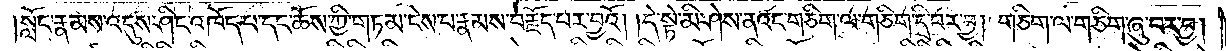སློང་རྣམས་འདུས་ཤིང་འཁོད་པ་དང་ཆོས་ཀྱི་གཏམ་ངེས་པ་རྣམས་བརྗོད་པར་བྱའོ། །དེ་སྟེ་མི་ཤེས་ནའང་གཅིག་ལ་གཅིག་དྲི་བར་བྱ། གཅིག་པ་ལ་གཅིག་ཞུ་བར་བྱ།
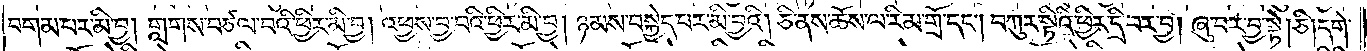བགམ་པར་མི་བྱ། གླགས་བཙལ་བའི་ཕྱིར་མི་བྱ། འཕྱས་བྱ་བའི་ཕྱིར་མི་བྱ། ཉམས་བསྐྱེད་པར་མི་བྱའི། ཅི་ནས་ཆོས་ལ་རིམ་གྲོ་དང༌། བཀུར་སྟིའི་ཕྱིར་དྲི་བར་བྱ། ཞུ་བར་བྱ་སྟེ། ཅི། དགེ་
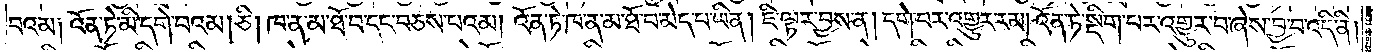བའམ༑ འོན་ཏེ་མི་དགེ་བའམ། ཅི། ཁ་ན་མ་ཐོ་བ་དང་བཅས་པའམ། འོན་ཏེ་ཁ་ན་མ་ཐོ་བ་མེད་པ་ཡིན། ཇི་ལྟར་བྱས་ན། དགེ་བར་འགྱུར་རམ། འོན་ཏེ་སྡིག་པར་འགྱུར་བ་ཞེས་བྱ་བ་འདི་ནི།
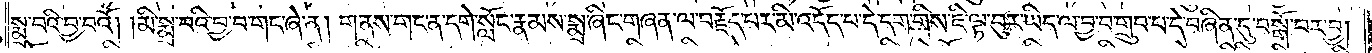སྨྲ་བའི་བྱ་བའོ། །མི་སྨྲ་བའི་བྱ་བ་གང་ཞེ་ན། གནས་གང་ན་དགེ་སློང་རྣམས་སྨྲ་ཞིང་གཞན་ལ་བརྗོད་པར་མི་འདོད་པ་དེ་དག་གིས་ཇི་ལྟ་བུར་ཡིད་ལ་བྱ་བ་གྲུབ་པ་དེ་བཞིན་དུ་བསྒོ་བར་བྱ།
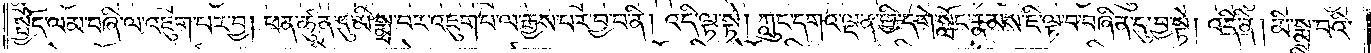སྤྱོད་ལམ་བཞི་ལ་འཇུག་པར་བྱ། ཕན་ཚུན་དུ་མི་སྨྲ་བར་འཇུག་པ་ལ་རྒྱས་པར་བྱ་བ་ནི། འདི་ལྟ་སྟེ། ཀླུང་དགའ་ལྡན་གྱི་དགེ་སློང་རྣམས་ཇི་ལྟ་བ་བཞིན་དུ་བྱ་སྟེ། འདི་ནི། མི་སྨྲ་བའི་
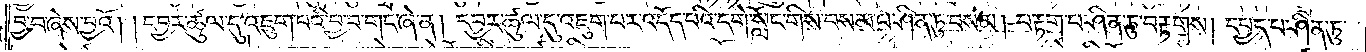བྱ་བ་ཞེས་བྱའོ། །དབྱར་ཚུལ་དུ་འཇུག་པའི་བྱ་བ་གང་ཞེ་ན། དབྱར་ཚུལ་དུ་འཇུག་པར་འདོད་པའི་དགེ་སློང་གིས་བསམ་པ་ཤིན་ཏུ་བསམ། བརྟག་པ་ཤིན་ཏུ་བརྟགས། དཔྱད་པ་ཤིན་ཏུ་
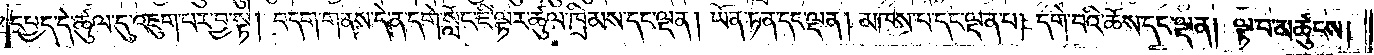དཔྱད་དེ་ཚུལ་དུ་འཇུག་པར་བྱ་སྟེ། བདག་གནས་དེ་ན་དགེ་སློང་ཇི་ལྟར་ཚུལ་ཁྲིམས་དང་ལྡན། ཡོན་ཏན་དང་ལྡན། མཁས་པ་དང་ལྡན་པ། དགེ་བའི་ཆོས་དང་ལྡན། ལྟ་བ་མཚུངས།
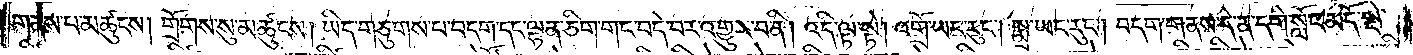གནས་པ་མཚུངས། གྲོགས་སུ་མཚུངས། ཡིད་གཅུགས་པ་བདག་དང་ལྷན་ཅིག་གང་བདེ་བར་འགྱུར་བ་ནི། འདི་ལྟ་སྟེ། འགྲོ་ཡང་རུང༌། སྨྲ་ཡང་རུང༌། བདག་གནས་དེ་ན་དགེ་སློང་མདོ་སྡེ་
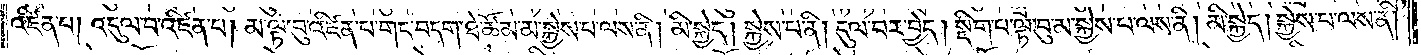འཛིན་པ། འདུལ་བ་འཛིན་པ། མ་ལྟ་བུ་འཛིན་པ་གང་བདག་ཐེ་ཚོམ་མ་སྐྱེས་པ་ལས་ནི། མི་སྐྱེད། སྐྱེས་པ་ནི། དུལ་བར་བྱེད། སྡིག་པ་ལྟ་བུ་མ་སྐྱེས་པ་ལས་ནི། མི་སྐྱེད། སྐྱེས་པ་ལས་ནི།
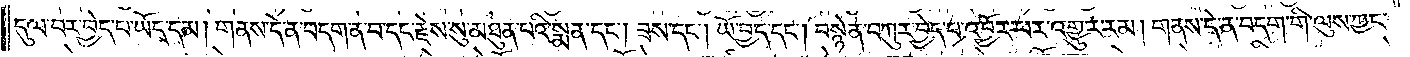དུལ་བར་བྱེད་པ་ཡོད་དམ། གནས་དེ་ན་བདག་ན་བ་དང་རྗེས་སུ་མཐུན་པའི་སྨན་དང༌། ཟས་དང༌། ཡོ་བྱད་དང༌། བསྙེན་བཀུར་བྱེད་པ་འབྱོར་པར་འགྱུར་རམ། གནས་དེ་ན་བདག་གི་ལུས་ཀྱང་
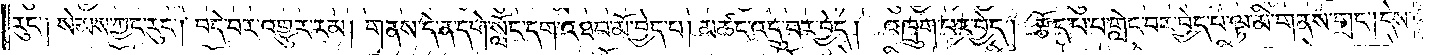རུང་༑ སེམས་ཀྱང་རུང༌། བདེ་བར་འགྱུར་རམ། གནས་དེ་ན་དགེ་སློང་དག་འཐབ་མོ་བྱེད་པ། མཚང་འདྲུ་བར་བྱེད། འཁྲུག་པར་བྱེད། རྩོད་པ་པ་གླེང་བར་བྱེད་པ་ལྟ་མི་གནས་གྲང༌། དེས་
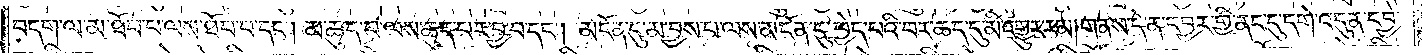བདག་ལ་མ་ཐོབ་པ་ལས་ཐོབ་པ་དང༌། མ་ཆུད་པ་ལས་ཆུད་པར་བྱ་བ་དང༌། མངོན་དུ་མ་བྱས་པ་ལ་མངོན་དུ་ཕྱེད་པའི་བར་ཆད་དུ་མི་འགྱུར་རམ། གནས་དེ་ན་དབྱར་གྱི་ནང་དུ་དགེ་འདུན་དབྱེ་
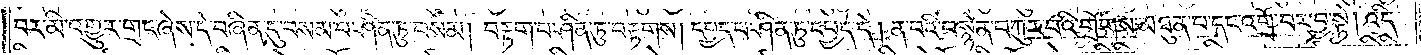བར་མི་འགྱུར་གྲང་ཞེས་དེ་བཞིན་དུ་བསམ་པ་ཤིན་ཏུ་བསམ། བརྟག་པ་ཤིན་ཏུ་བརྟགས། དཔྱད་པ་ཤིན་ཏུ་དཔྱད་དེ། ན་བའི་བསྙེན་བཀུར་བའི་གྲོགས་མཐུན་པ་དང་འགྲོ་བར་བྱ་སྟེ། འདི་
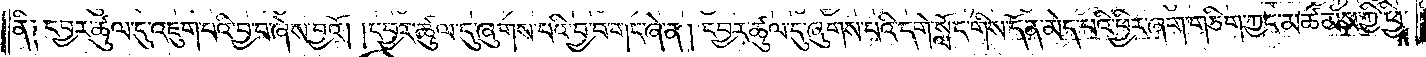ནི༑ དབྱར་ཚུལ་དུ་འཇུག་པའི་བྱ་བ་ཞེས་བྱའོ། །དབྱར་ཚུལ་དུ་ཞུགས་པའི་བྱ་བ་གང་ཞེ་ན། དབྱར་ཚུལ་དུ་ཞུགས་པའི་དགེ་སློང་གིས་དོན་མེད་པའི་ཕྱིར་ཞག་གཅིག་ཀྱང་མཚམས་ཀྱི་ཕྱི་
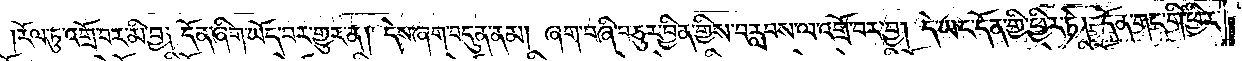རོལ་ཏུ་འགྲོ་བར་མི་བྱ༑ དོན་ཞིག་ཡོད་པར་གྱུར་ན། དེས་ཞག་བདུན་ནམ། ཞག་བཞི་བཅུར་བྱིན་གྱིས་བརླབས་ལ་འགྲོ་བར་བྱ། དེ་ཡང་དོན་གྱི་ཕྱིར་ཏེ། དོན་གང་གི་ཕྱིར་
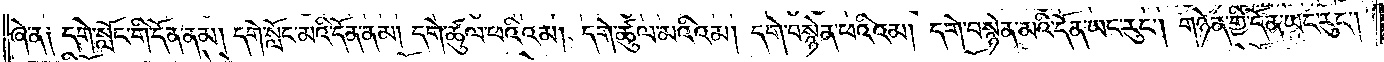ཞེ་ན༑ དགེ་སློང་གི་དོན་ནམ། དགེ་སློང་མའི་དོན་ནམ། དགེ་ཚུལ་ཕའི་འམ། དགེ་ཚུལ་མའིའམ། དགེ་བསྙེན་ཕའིའམ། དགེ་བསྙེན་མའི་དོན་ཡང་རུང༌། གཉེན་གྱི་དོན་ཡང་རུང༌།
